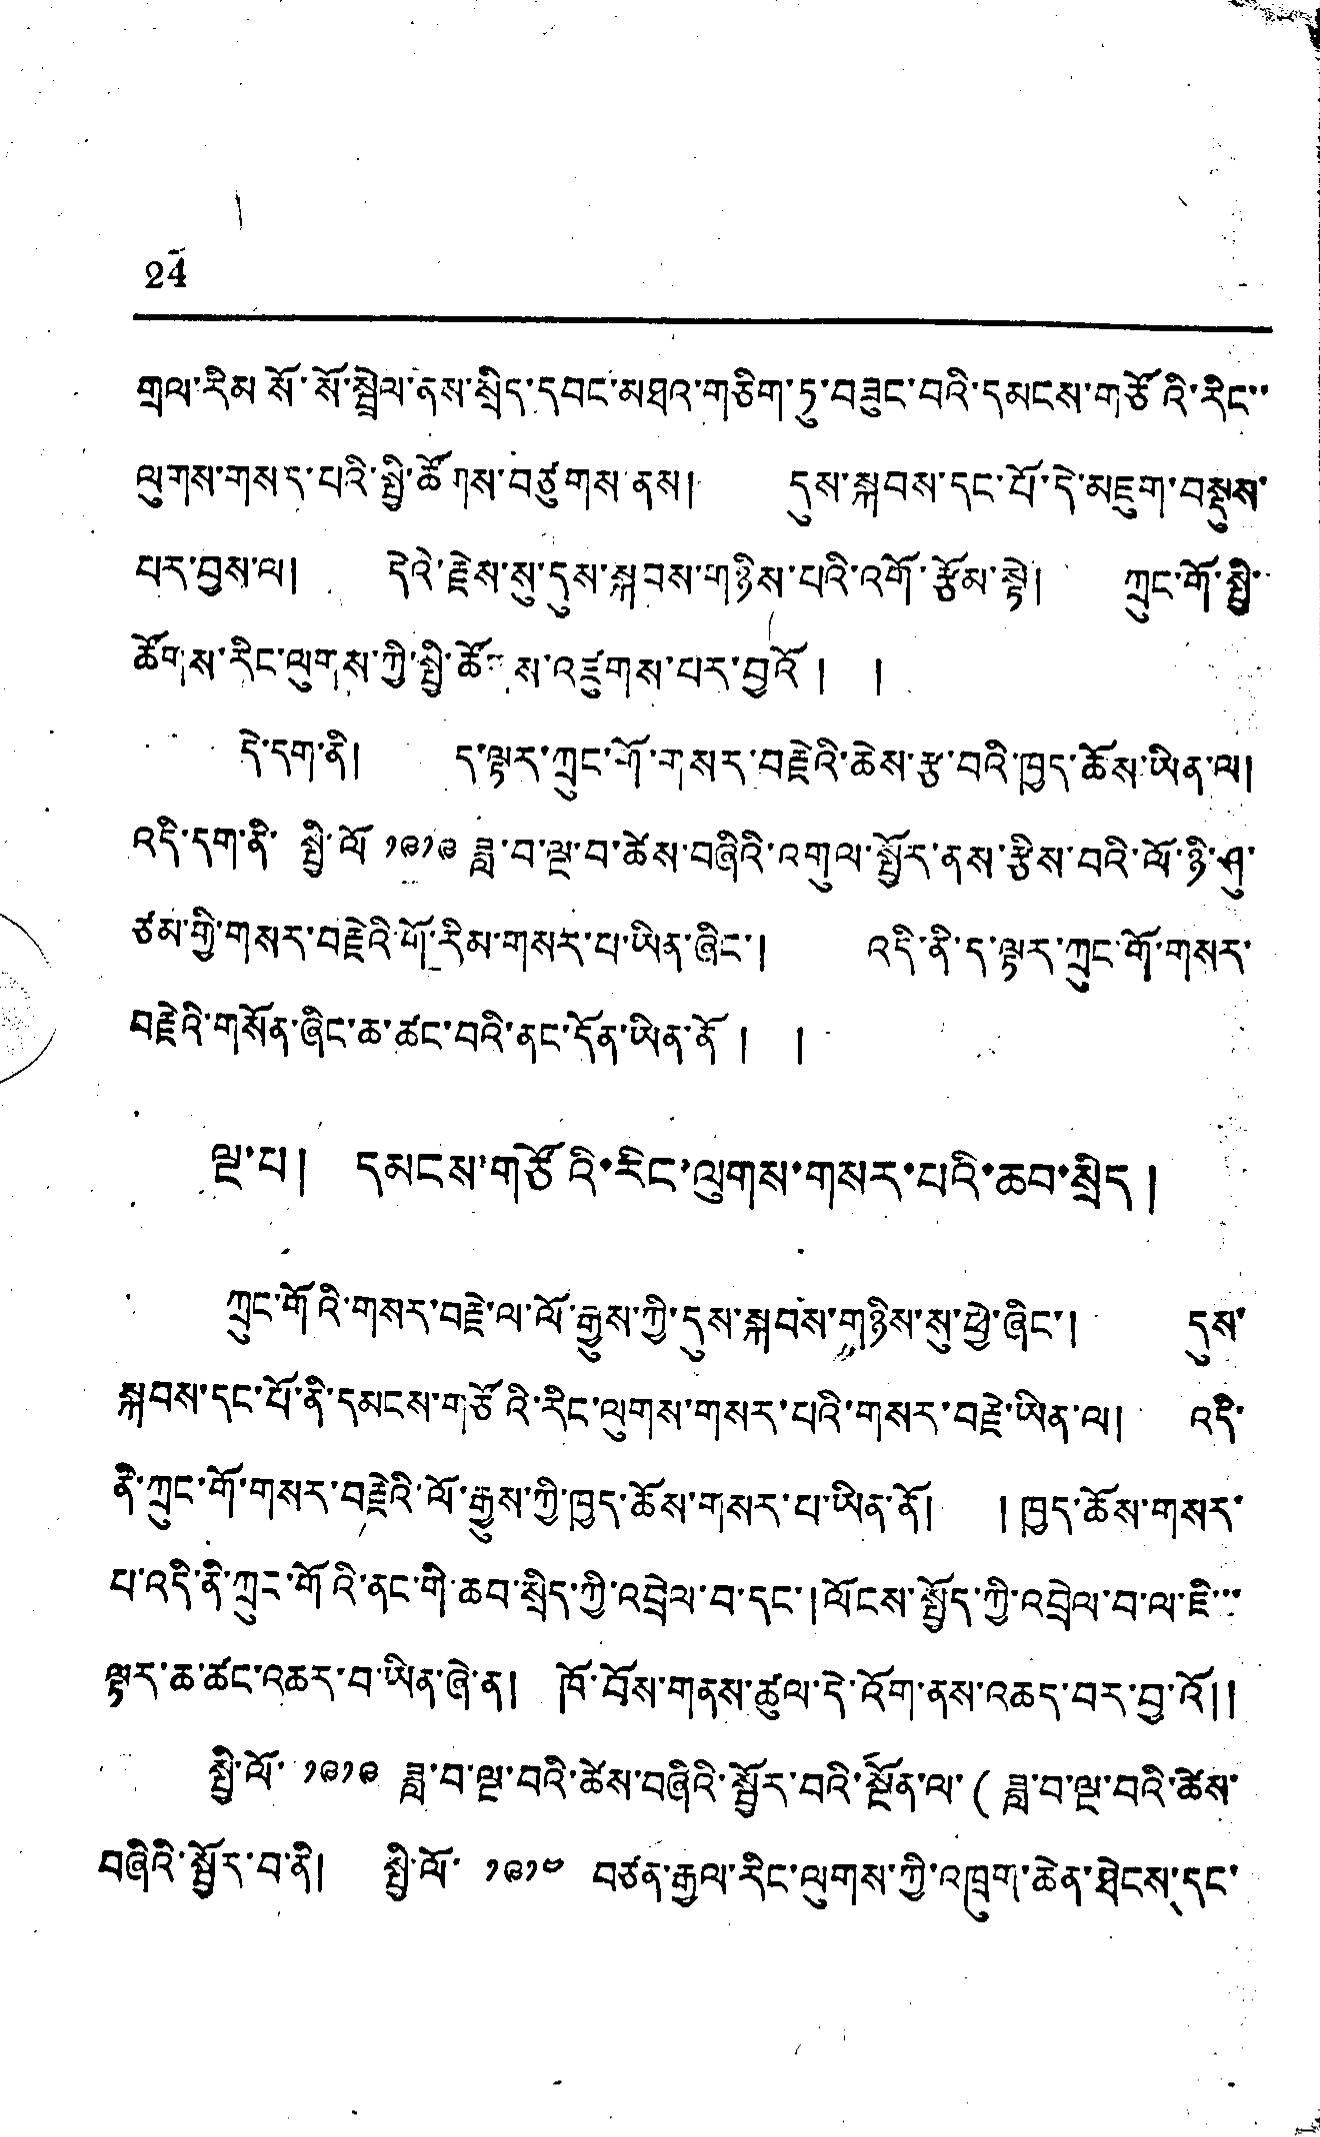24
གྲལ་རིམ་སོ་སོ་སྦྲེལ་ནས་སྲིད་དབང་མཐའ་གཅིག་ཏུ་བཟུང་བའི་དམངས་གཙོའི་རིང་་
ལུགས་གསྲ་པའི་སྤྱི་ཚོགས་བཙུགས་ནས། དུས་སྐབས་དང་པོ་དེ་མཇུག་བསྡུས་
པར་བྱས་ལ། དེའི་རྗེས་སུ་དུས་སྐབས་གཉིས་པའི་འགོ་རྩོམ་སྟེ། ཀྲུང་གོ་སྤྱི་
ཚོགས་རིང་ལུགས་ཀྱི་སྤྱི་ཚོགས་འཛུགས་པར་བྱའོ ། །
དེ་དག་ནི། ད་ལྟར་ཀྲུང་གོ་གསྲ་བརྗེའི་ཆེས་རྩ་བའི་ཁྱད་ཆོས་ཡིན་ལ།
འདི་དག་ནི་ སྤྱི་ལོ ༡༩༡༩ ཟླ་བ་ལྔ་བ་ཚེས་བཞིའི་འགུལ་སྤྱོར་ནས་རྩིས་བའི་ལོ་ཉི་ཤུ་
ཏམ་གྱི་གསར་བརྗེའི་གོ་རིམ་གསར་པ་ཡིན་ཞིང་། འདི་ནི་ད་ལྟར་ཀྲུང་གོ་གསར་
བརྗེའི་གསོན་ཞིང་ཆ་ཚང་བའི་ནང་དོན་ཡིན་ནོ ། །
ལྔ་པ། དམངས་གཙོའི་རིང་ལུགས་གསྲ་པའི་ཆ་སྲིད།
ཀྲུང་གོའི་གསར་བརྗེ་ལ་ལོ་རྒྱུས་ཀྱི་དུས་སྐབས་གཉིས་སུ་ཕྱེ་ཞིང་། དུས་
སྐབས་དང་པོ་ནི་དམངས་གཙོའི་རིང་ལུགས་གསྲ་པའི་གསར་བརྗེ་ཡིན་ལ། འདི་
ནི་ཀྲུང་གོ་གསར་བརྗེའི་ལོ་རྒྱུས་ཀྱི་ཁྱད་ཆོས་གསར་པ་ཡིན་ནོ། །ཁྱད་ཆོས་གསར་
པ་འདི་ནི་ཀྲུང་གོའི་ནང་གི་ཆབ་སྲིད་ཀྱི་འབྲེལ་བ་དང་། ལོངས་སྤྱོད་ཀྱི་འབྲེལ་བ་ལ་ཇི་་་
ལྟར་ཆ་ཚང་འཆར་བ་ཡིན་ཞེ་ན། ཁོ་བོས་གནས་ཚུལ་དེ་འོག་ནས་འཆད་བར་བྱ་འོ། །
སྤྱི་ལོ་ ༡༩༡༩ ཟླ་བ་ལྔ་བའི་ཚེས་བཞིའི་སྦྱོར་བའི་སྔོན་ལ་(ཟླ་བ་ལྔ་བའི་ཚེས་
བཞིའི་སྦྱོར་བ་ནི། སྤྱི་ལོ་ ༡༩༡༤ བཙན་རྒྱལ་རིང་ལུགས་ཀྱི་འཁྲུག་ཆེན་ཐེངས་དང་
